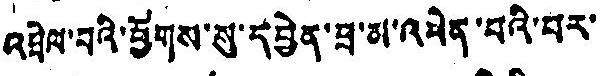འབྲེལ་བའི་ཕྱོགས་སུ་དབྱེན་བྲ་མ་འཕེན་པའི་པར་
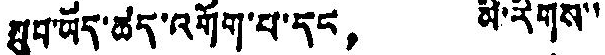སྲུབ་ཡོད་ཚད་འགོག་པ་དང， མི་རིགས་་
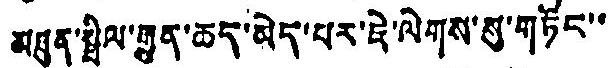མཐུན་སྤྲིལ་རྒྱུན་ཆད་མེད་པར་ཇེ་ལེགས་སུ་གཏོང་་
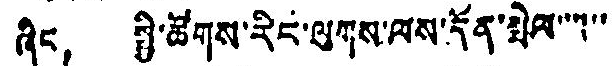ཞིང， སྤྱི་ཚོགས་རིང་ལུགས་ལས་དོན་སྤེལ་་་་་་
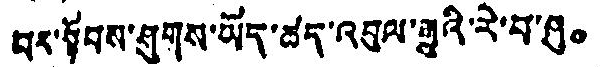བར་སྟོབས་ཤུགས་ཡོད་ཚད་འབུལ་རྒྱུའི་རེ་བ་ཤུ。
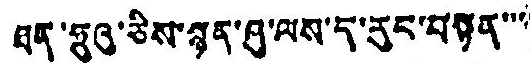ཐན་ཧྲུའུ་ཅིས་སྙན་ཤུ་ལས་ད་རུང་བསྟན་་་་
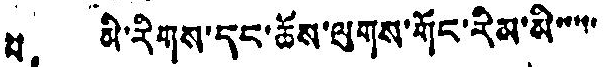པ， མི་རིགས་དང་ཆོས་ལུགས་གོང་རིམ་མི་་་་་་་
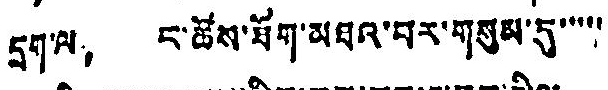དྲག་ལ， ང་ཚོས་ཐོག་མཐའ་བར་གསུམ་དུ་་་་་
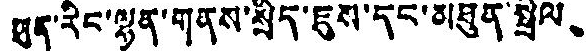ཐུན་རིང་ལྷན་གནས་སྲིད་ཇུས་དང་མཐུན་སྒྲིལ、
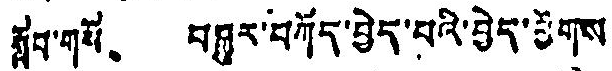སློབ་གསོ、 བསྐུར་བཀོད་བྱེད་པའི་བྱེད་ཕྱོགས
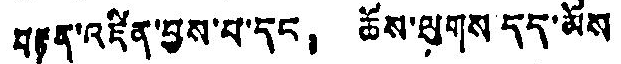བརྟན་འཛིན་བྱས་པ་དང， ཆོས་ལུགས དད་མོས།
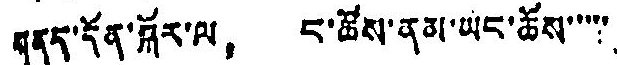གནད་དོན་སྐོར་ལ， ང་ཚོས་ནམ་ཡང་ཆོས་་་་་
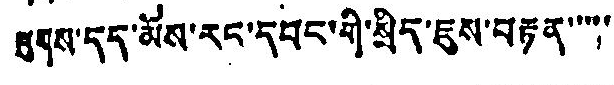ལུགས་དད་མོས་རང་དབང་གི་སྲིད་ཇུས་བརྟན་་་་་་
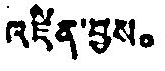འཛིན་བྱས。
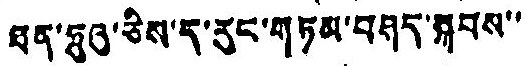ཐན་ཧྲུའུ་ཅིས་ད་རུང་གཏམ་བཤད་སྐབས་་
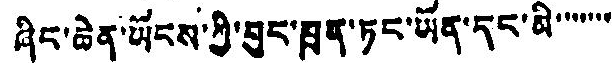ཞིང་ཆེན་ཡོངས་ཀྱི་བུང་ཁྲན་ཏང་ཡོན་དང་མི་་་་་་་
